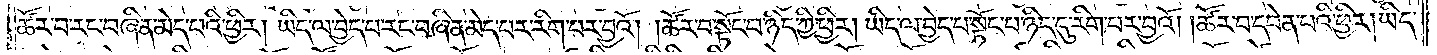ཚོར་བ་རང་བཞིན་མེད་པའི་ཕྱིར། ཡིད་ལ་བྱེད་པ་རང་བཞིན་མེད་པར་རིག་པར་བྱའོ། །ཚོར་བ་སྟོང་པ་ཉིད་ཀྱི་ཕྱིར། ཡིད་ལ་བྱེད་པ་སྟོང་པ་ཉིད་དུ་རིག་པར་བྱའོ། །ཚོར་བ་དབེན་པའི་ཕྱིར། ཡིད་
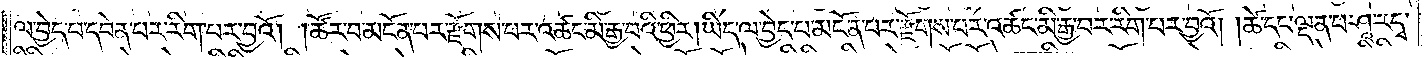ལ་བྱེད་པ་དབེན་པར་རིག་པར་བྱའོ། །ཚོར་བ་མངོན་པར་རྫོགས་པར་འཚང་མི་རྒྱ་བའི་ཕྱིར། ཡིད་ལ་བྱེད་པ་མངོན་པར་རྫོགས་པར་འཚང་མི་རྒྱ་བར་རིག་པར་བྱའོ། །ཚེ་དང་ལྡན་པ་ཤཱ་ར་དྭ་
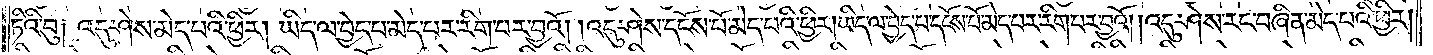ཏིའི་བུ། འདུ་ཤེས་མེད་པའི་ཕྱིར། ཡིད་ལ་བྱེད་པ་མེད་པར་རིག་པར་བྱའོ། །འདུ་ཤེས་དངོས་པོ་མེད་པའི་ཕྱིར། ཡིད་ལ་བྱེད་པ་དངོས་པོ་མེད་པར་རིག་པར་བྱའོ། །འདུ་ཤེས་རང་བཞིན་མེད་པའི་ཕྱིར།
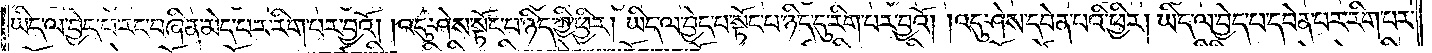ཡིད་ལ་བྱེད་པ་རང་བཞིན་མེད་པར་རིག་པར་བྱའོ། །འདུ་ཤེས་སྟོང་པ་ཉིད་ཀྱི་ཕྱིར། ཡིད་ལ་བྱེད་པ་སྟོང་པ་ཉིད་དུ་རིག་པར་བྱའོ། །འདུ་ཤེས་དབེན་པའི་ཕྱིར། ཡིད་ལ་བྱེད་པ་དབེན་པར་རིག་པར་
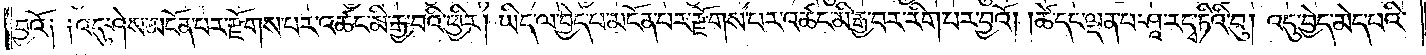བྱའོ༏ ༏འདུ་ཤེས་མངོན་པར་རྫོགས་པར་འཚང་མི་རྒྱ་བའི་ཕྱིར། ཡིད་ལ་བྱེད་པ་མངོན་པར་རྫོགས་པར་འཚང་མི་རྒྱ་བར་རིག་པར་བྱའོ། །ཚེ་དང་ལྡན་པ་ཤཱ་ར་དྭ་ཏིའི་བུ། འདུ་བྱེད་མེད་པའི་
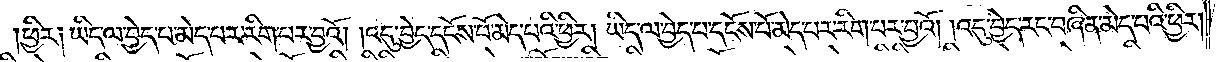ཕྱིར། ཡིད་ལ་བྱེད་པ་མེད་པར་རིག་པར་བྱའོ། །འདུ་བྱེད་དངོས་པོ་མེད་པའི་ཕྱིར། ཡིད་ལ་བྱེད་པ་དངོས་པོ་མེད་པར་རིག་པར་བྱའོ། །འདུ་བྱེད་རང་བཞིན་མེད་པའི་ཕྱིར།
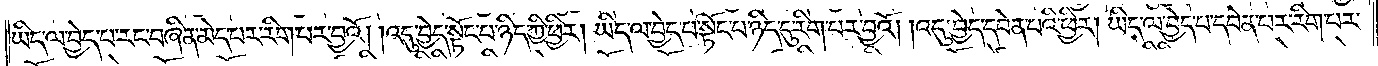ཡིད་ལ་བྱེད་པ་རང་བཞིན་མེད་པར་རིག་པར་བྱའོ། །འདུ་བྱེད་སྟོང་པ་ཉིད་ཀྱི་ཕྱིར། ཡིད་ལ་བྱེད་པ་སྟོང་པ་ཉིད་དུ་རིག་པར་བྱའོ། །འདུ་བྱེད་དབེན་པའི་ཕྱིར། ཡིད་ལ་བྱེད་པ་དབེན་པར་རིག་པར་
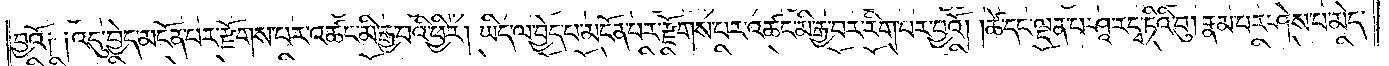བྱའོ༏ ༏འདུ་བྱེད་མངོན་པར་རྫོགས་པར་འཚང་མི་རྒྱ་བའི་ཕྱིར། ཡིད་ལ་བྱེད་པ་མངོན་པར་རྫོགས་པར་འཚང་མི་རྒྱ་བར་རིག་པར་བྱའོ། །ཚེ་དང་ལྡན་པ་ཤཱ་ར་དྭ་ཏིའི་བུ། རྣམ་པར་ཤེས་པ་མེད་
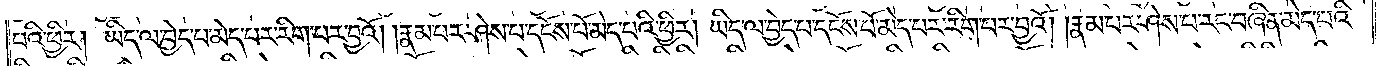པའི་ཕྱིར། ཡིད་ལ་བྱེད་པ་མེད་པར་རིག་པར་བྱའོ། །རྣམ་པར་ཤེས་པ་དངོས་པོ་མེད་པའི་ཕྱིར། ཡིད་ལ་བྱེད་པ་དངོས་པོ་མེད་པར་རིག་པར་བྱའོ། །རྣམ་པར་ཤེས་པ་རང་བཞིན་མེད་པའི་
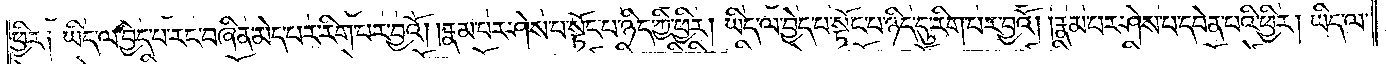ཕྱིར། ཡིད་ལ་བྱེད་པ་རང་བཞིན་མེད་པར་རིག་པར་བྱའོ། །རྣམ་པར་ཤེས་པ་སྟོང་པ་ཉིད་ཀྱི་ཕྱིར། ཡིད་ལ་བྱེད་པ་སྟོང་པ་ཉིད་དུ་རིག་པར་བྱའོ། །རྣམ་པར་ཤེས་པ་དབེན་པའི་ཕྱིར། ཡིད་ལ་
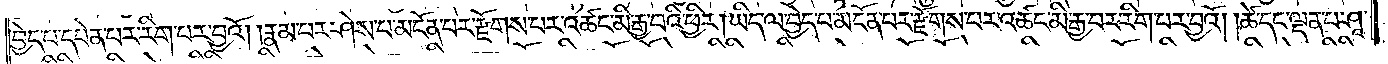བྱེད་པ་དབེན་པར་རིག་པར་བྱའོ། །རྣམ་པར་ཤེས་པ་མངོན་པར་རྫོགས་པར་འཚང་མི་རྒྱ་བའི་ཕྱིར། ཡིད་ལ་བྱེད་པ་མངོན་པར་རྫོགས་པར་འཚང་མི་རྒྱ་བར་རིག་པར་བྱའོ། །ཚེ་དང་ལྡན་པ་ཤཱ་
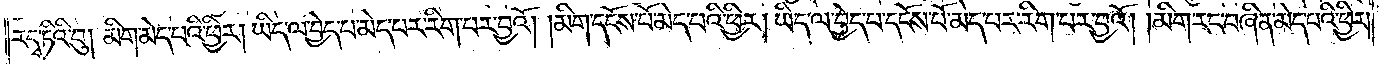ར་དྭ་ཏིའི་བུ། མིག་མེད་པའི་ཕྱིར། ཡིད་ལ་བྱེད་པ་མེད་པར་རིག་པར་བྱའོ། མིག་དངོས་པོ་མེད་པའི་ཕྱིར། ཡིད་ལ་བྱེད་པ་དངོས་པོ་མེད་པར་རིག་པར་བྱའོ། །མིག་རང་བཞིན་མེད་པའི་ཕྱིར།
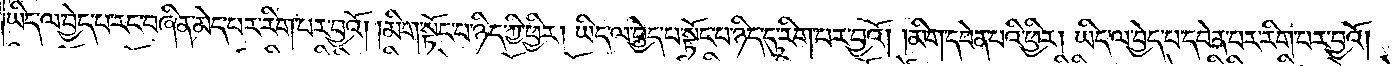ཡིད་ལ་བྱེད་པ་རང་བཞིན་མེད་པར་རིག་པར་བྱའོ། །མིག་སྟོང་པ་ཉིད་ཀྱི་ཕྱིར། ཡིད་ལ་བྱེད་པ་སྟོང་པ་ཉིད་དུ་རིག་པར་བྱའོ། །མིག་དབེན་པའི་ཕྱིར། ཡིད་ལ་བྱེད་པ་དབེན་པར་རིག་པར་བྱའོ། །
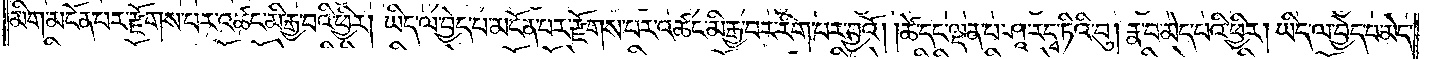མིག་མངོན་པར་རྫོགས་པར་འཚང་མི་རྒྱ་བའི་ཕྱིར། ཡིད་ལ་བྱེད་པ་མངོན་པར་རྫོགས་པར་འཚང་མི་རྒྱ་བར་རིག་པར་བྱའོ། །ཚེ་དང་ལྡན་པ་ཤཱ་ར་དྭ་ཏིའི་བུ། རྣ་བ་མེད་པའི་ཕྱིར། ཡིད་ལ་བྱེད་པ་མེད་
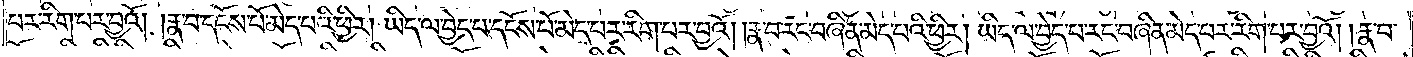པར་རིག་པར་བྱའོ། །རྣ་བ་དངོས་པོ་མེད་པའི་ཕྱིར། ཡིད་ལ་བྱེད་པ་དངོས་པོ་མེད་པར་རིག་པར་བྱའོ། །རྣ་བ་རང་བཞིན་མེད་པའི་ཕྱིར། ཡིད་ལ་བྱེད་པ་རང་བཞིན་མེད་པར་རིག་པར་བྱའོ། །རྣ་བ་
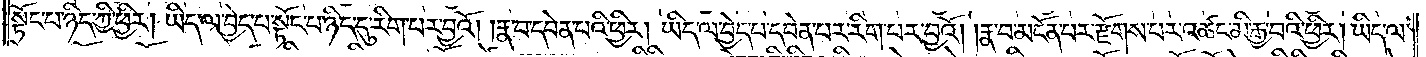སྟོང་པ་ཉིད་ཀྱི་ཕྱིར། ཡིད་ལ་བྱེད་པ་སྟོང་པ་ཉིད་དུ་རིག་པར་བྱའོ། །རྣ་བ་དབེན་པའི་ཕྱིར། ཡིད་ལ་བྱེད་པ་དབེན་པར་རིག་པར་བྱའོ། །རྣ་བ་མངོན་པར་རྫོགས་པར་འཚང་མི་རྒྱ་བའི་ཕྱིར། ཡིད་ལ་
